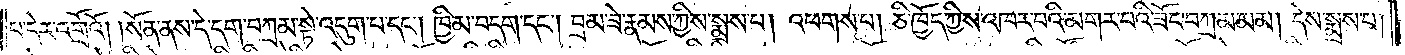པ་དེར་འགྲོའོ། །སོན་ནས་དེ་དག་བཀྲམ་སྟེ་འདུག་པ་དང༌། ཁྱིམ་བདག་དང༌། བྲམ་ཟེ་རྣམས་ཀྱིས་སྨྲས་པ། འཕགས་པ། ཅི་ཁྱོད་ཀྱིས་འཁར་བའི་མགར་བའི་ཟོང་བཀྲམ་མམ། དེས་སྨྲས་པ།
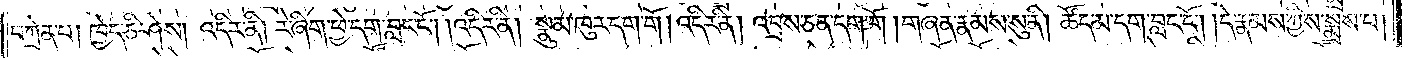བཀྲེན་པ། ཁྱེད་ཅི་ཤེས། འདིར་ནི། རེ་ཞིག་ཕྱེ་དག་བླང་ངོ༌། །འདིར་ནི། སྣུམ་ཁུར་དག་གོ། འདིར་ནི། འབྲས་ཅན་དག་གོ །གཞན་རྣམས་སུ་ནི། ཚོད་མ་དག་བླང་ངོ༌། །དེ་རྣམས་ཀྱིས་སྨྲས་པ།
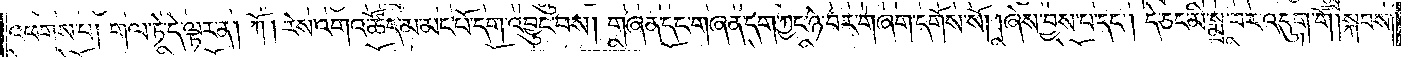འཕགས་པ། གལ་ཏེ་དེ་ལྟར་ན། ཀོ། རེས་འགའ་ཚོད་མ་མང་པོ་དག་འབྱུང་བས། གཞན་དང་གཞན་དག་ཀྱང་ཉེ་བར་གཞག་དགོས་སོ། །ཞེས་བྱས་པ་དང༌། དེ་ཅང་མི་སྨྲ་བར་འདུག་གོ །སྐབས་
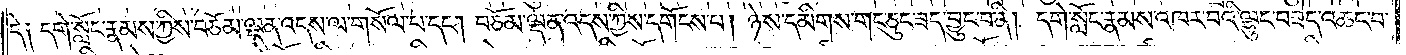དེ༑ དགེ་སློང་རྣམས་ཀྱིས་བཅོམ་ལྡན་འདས་ལ་གསོལ་པ་དང༌། བཅོམ་ལྡན་འདས་ཀྱིས་དགོངས་པ། ཉེས་དམིགས་གང་ཅུང་ཟད་བྱུང་བ་ནི། དགེ་སློང་རྣམས་འཁར་བའི་ལྷུང་བཟེད་འཆང་བ་
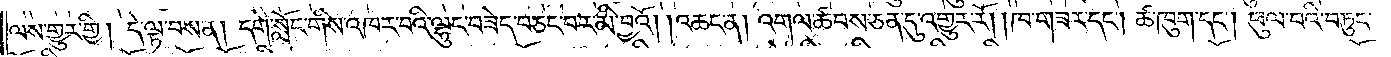ལས་གྱུར་གྱི། དེ་ལྟ་བས་ན། དགེ་སློང་གིས་འཁར་བའི་ལྷུང་བཟེད་བཅང་བར་མི་བྱའོ། །འཆང་ན། འགལ་ཚབས་ཅན་དུ་འགྱུར་རོ། །ཁ་གཟར་དང༌། ཚ་ཁུག་དང༌། ཕུལ་བའི་བཏུང་
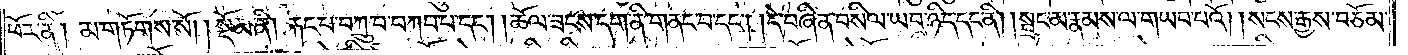ཕོར་ནི། མ་གཏོགས་སོ།    །སྡོམ་ནི། རྐང་པ་བཀྲུ་བ་བཀབ་པ་དང༌། །ཆོལ་ཟངས་དག་ནི་གནང་བ་དང༌། །དེ་བཞིན་བསིལ་ཡབ་ཉིད་དང་ནི། སྦྲང་མ་རྣམས་ལ་གཡབ་པའོ། །སངས་རྒྱས་བཅོམ་
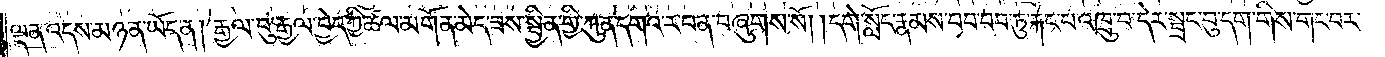ལྡན་འདས་མཉན་ཡོད་ན། རྒྱལ་བུ་རྒྱལ་བྱེད་ཀྱི་ཚལ་མགོན་མེད་ཟས་སྦྱིན་གྱི་ཀུན་དགའ་ར་བ་ན་བཞུགས་སོ། །དགེ་སློང་རྣམས་བབ་བབ་ཏུ་རྐང་པ་འཁྲུ་བ་དེར་སྦྲང་བུ་དག་གིས་གང་བར་
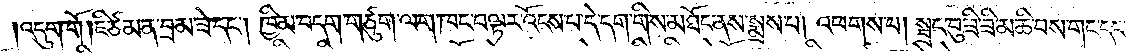འདུག་གོ །ཇི་ཙམ་ན་བྲམ་ཟེ་དང༌། ཁྱིམ་བདག་གཙུག་ལག་ཁང་བལྟར་འོངས་པ་དེ་དག་གིས་མཐོང་ནས་སྨྲས་པ། འཕགས་པ། སྦྲང་བུ་ཟི་ཟི་མཆི་བས་གང་དང་
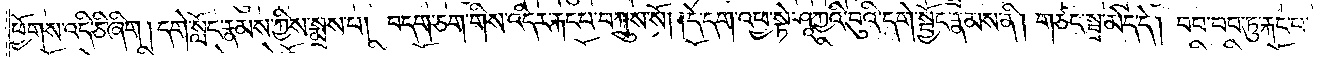ཕྱོགས་འདི་ཅི་ཞིག། དགེ་སློང་རྣམས་ཀྱིས་སྨྲས་པ། བདག་ཅག་གིས་འདིར་རྐང་པ་བཀྲུས་སོ། །དེ་དག་འཕྱ་སྟེ་ཤཱཀྱའི་བུའི་དགེ་སྦྱོང་རྣམས་ནི། གཙང་སྦྲ་མེད་དེ། བབ་བབ་ཏུ་རྐང་པ་
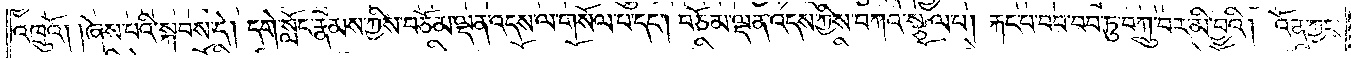འཁྲུའོ། །ཞེས་པའི་སྐབས་དེ། དགེ་སློང་རྣམས་ཀྱིས་བཅོམ་ལྡན་འདས་ལ་གསོལ་པ་དང༌། བཅོམ་ལྡན་འདས་ཀྱིས་བཀའ་སྩལ་པ། རྐང་པ་བབ་བབ་ཏུ་བཀྲུ་བར་མི་བྱའི། འོན་ཀྱང་
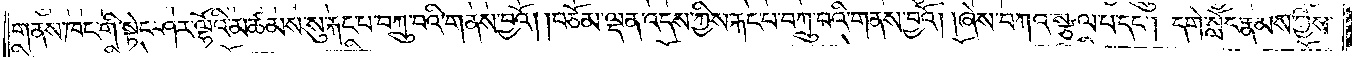གནས་ཁང་གི་སྟེང་ཤར་ལྷོའི་མཚམས་སུ་རྐང་པ་བཀྲུ་བའི་གནས་བྱའོ། །བཅོམ་ལྡན་འདས་ཀྱིས་རྐང་པ་བཀྲུ་བའི་གནས་བྱའོ། །ཞེས་བཀའ་སྩལ་པ་དང༌། དགེ་སློང་རྣམས་ཀྱིས་
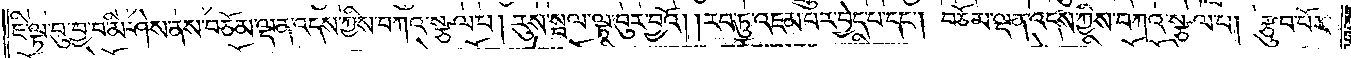ཇི་ལྟ་བུ་བྱ་བ་མི་ཤེས་ནས་བཅོམ་ལྡན་འདས་ཀྱིས་བཀའ་སྩལ་པ། རུས་སྦལ་ལྟ་བུར་བྱའོ། །རབ་ཏུ་འཇམ་པར་བྱེད་པ་དང༌། བཅོམ་ལྡན་འདས་ཀྱིས་བཀའ་སྩལ་པ། རྩུབ་པོར་
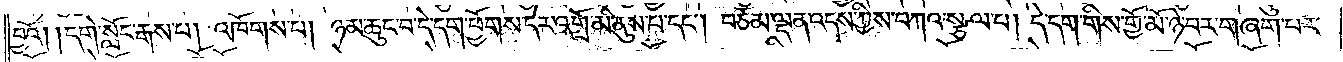བྱའོ། །དགེ་སློང་རྒས་པ། འཁོགས་པ། ཉམ་ཆུང་བ་དེ་དག་ཕྱོགས་དེར་འགྲོ་མི་ནུས་པ་དང༌། བཅོམ་ལྡན་འདས་ཀྱིས་བཀའ་སྩལ་པ། དེ་དག་གིས་གྱོ་མོ་ཉེ་བར་གཞག་པར་
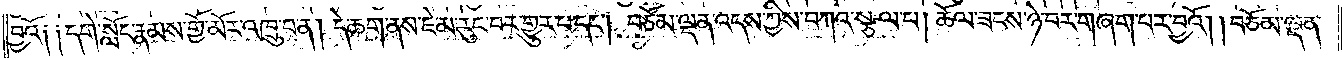བྱའོ༑ ༑དགེ་སློང་རྣམས་གྱོ་མོར་འཁྲུ་བ་ན། དེ་ཆག་ནས་ཇེ་མ་རུང་བར་གྱུར་པ་དང༌། བཅོམ་ལྡན་འདས་ཀྱིས་བཀའ་སྩལ་པ། ཆོལ་ཟངས་ཉེ་བར་གཞག་པར་བྱའོ། །བཅོམ་ལྡན་
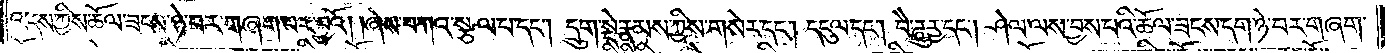འདས་ཀྱིས་ཆོལ་ཟངས་ཉེ་བར་གཞག་པར་བྱའོ། །ཞེས་བཀའ་སྩལ་པ་དང༌། དྲུག་སྡེ་རྣམས་ཀྱིས་གསེར་དང༌། དངུལ་དང༌། བཻ་ཌཱུཪྻ་དང༌། ཤེལ་ལས་བྱས་པའི་ཆོལ་ཟངས་དག་ཉེ་བར་གཞག་
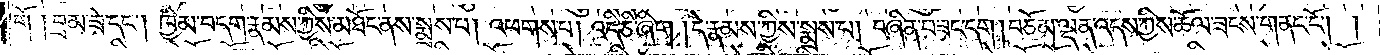གོ༑ བྲམ་ཟེ་དང༌། ཁྱིམ་བདག་རྣམས་ཀྱིས་མཐོང་ནས་སྨྲས་པ། འཕགས་པ། འདི་ཅི་ཞིག །དེ་རྣམས་ཀྱིས་སྨྲས་པ། བཞིན་བཟང་དག །བཅོམ་ལྡན་འདས་ཀྱིས་ཆོལ་ཟངས་གནང་ངོ༌། །
